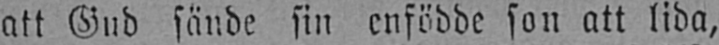att Gud sände sin enfödde son att lida,
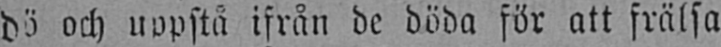dö och uppstå ifrån de döda för att frälsa
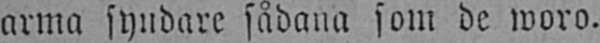arma syndare sådana som de woro.
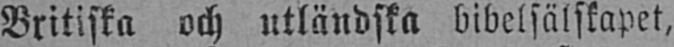Britiska och utländska bibelsälskapet,
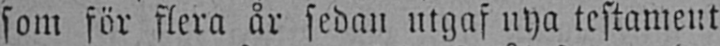som för flera år sedan utgaf nya testament
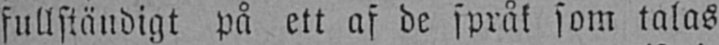fullständigt på ett af de språk som talas
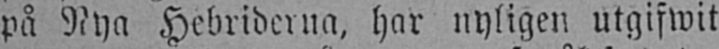på Nya Hebriderna, har nyligen utgifwit
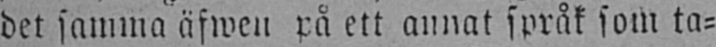det samma äfwen på ett annat språk som ta-
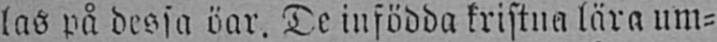las på dessa öar. De infödda kristna lära um-
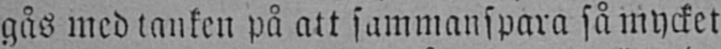gås med tanken på att sammanspara så mycket
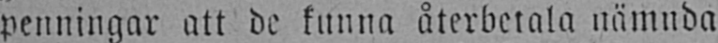penningar att de kunna återbetala nämnda
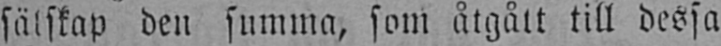sälskap den summa, som åtgått till dessa
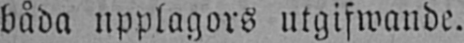båda upplagors utgifwande.
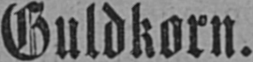Guldkorn.
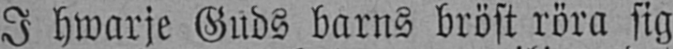I hwarje Guds barns bröst röra sig
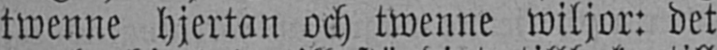twenne hjertan och twenne wiljor: det
